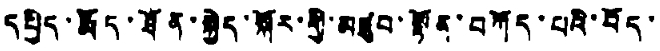དཔྱིད་རྨོད་ཐོན་སྐྱེད་སྐོར་གྱི་མཛུབ་སྟོན་བཀོད་པའི་བོད་
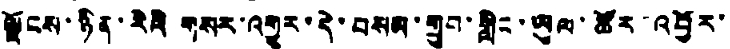ལྗོངས་ཉིན་རིའི གསར་འགྱུར་དེ་བསམ་གྲུབ་གླིང་ཡུལ་ཚོར་འབྱོར་
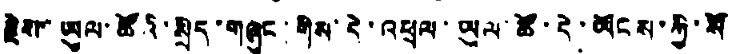རྗེས་ཡུལ་ཚོའི་སྲིད་གཞུང་གིས་དེ་འཕྲལ་ཡུལ་ཚོ་དེ་ཡོངས་ཀྱི་སོ
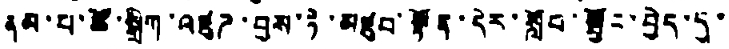ནམ་པ་ཚོ་སྒྲིག་འཛུཌ་བྱས་ཏེ་མཛུབ་སྟོན་དེར་སློབ་སྦྱོང་བྱེད་དུ་
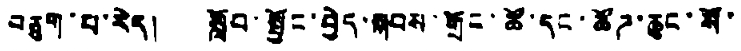བཅུག་པ་རེད། སློབ་སྦྱོང་བྱེད་སྐབས་གྲོང་ཚོ་དང་ཚོཌ་ཆུང་སོ་
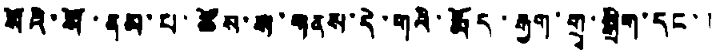སོའི་སོ་ནམ་པ་ཚོས་ས་གནས་དེ་གའི་རྨོད་རྒྱག་གྲྭ་སྒྲིག་དང་།
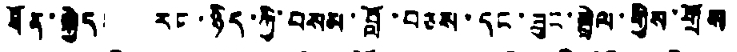ཐོན་སྐྱེད རང་ཉིད་ཀྱི་བསམ་བློ་བཅས་དང་ཟུང་སྦྲེལ་གྱིས་གྲོས
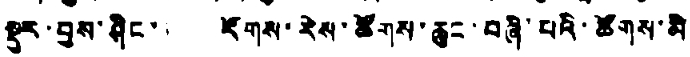སྡུར་བྱས་ཞིང་། རོགས་རེས་ཚོགས་ཆུང་བཞི་པའི་ཚོགས་མི་
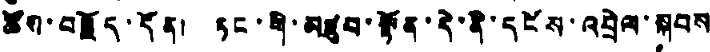ཚོས་བརྗོད་དོན། ཏང་གི་མཛུབ་སྟོན་དེ་ནི་དངོས་འབྲེལ་སྐབས་
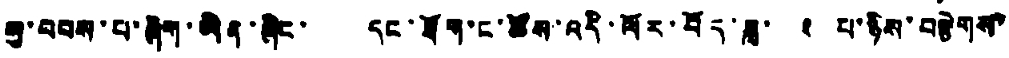སུ་བབས་པ་ཞིག་ཡིན་ཞིང་ དང་ཐོག་ང་ཚོས་འདི་ལོར་བོད་ཟླ་ ༢ པ་ཉིས་བརྩེགས་
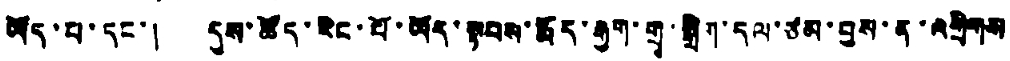ཡོད་པ་དང་། དུས་ཚོད་རིང་པོ་ཡོད་སྟབས་རྨོད་རྒྱག་གྲྭ་སྒྲིག་དལ་ཙམ་བྱས་ན་འགྲིགས
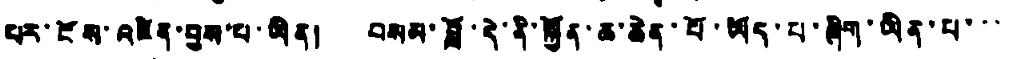པར་ངོས་འཛིན་བྱས་པ་ཡིན། བསམ་བློ་དེ་ནི་སྐྱོན་ཆ་ཆེན་པོ་ཡོད་པ་ཞིག་ཡིན་པ་་་
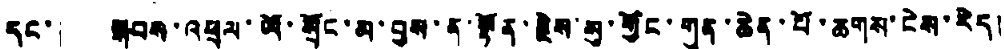དང་། སྐབས་འཕྲལ་ཡོ་སྲོང་མ་བྱས་ན་སྟོན་རྗེས་སུ་གྱོང་གུན་ཆེན་པོ་ཆགས་ངེས་རེད།
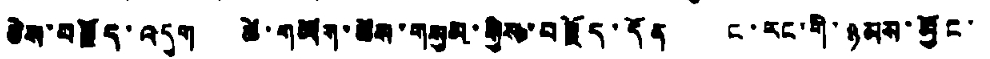ཅེས་བརྗོད་འདུག ཚེ་གཡོག་ཚེས་གསུམ་གྱིས་བརྗོད་དོན། ང་རང་གི་ཉམས་མྱོང་
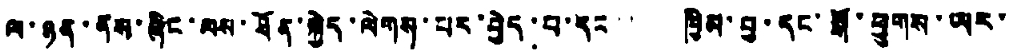ལ་ཉན་ནས་ཞིང་ལས་ཐོན་སྐྱེད་ལེགས་པར་བྱེད་པ་དང་ ཁྱིམ་བྱ་དང་སྒོ་ཕྱུགས་ཡར་
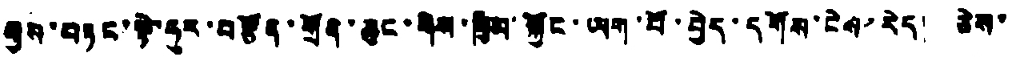རྒྱས་བཏང་སྟེ་ཧུར་བརྩོན་གྲོན་ཆུང་གིས་ཁྱིམ་སྐྱོང་ཡག་པོ་བྱེད་དགོས་ངེས་རེད། ཅེས་
